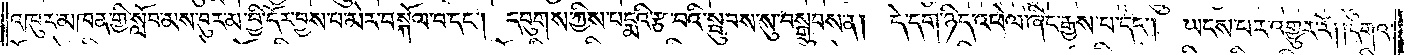འཁུར་མཁན་གྱི་སློབ་མས་བུ་རམ་བྱི་དོར་བྱས་པ་མེར་བསྐོལ་བ་དང༌། དབུགས་ཀྱིས་པདྨའི་རྩ་བའི་སྦུབས་སུ་བསྒྲུབས་ན། དེ་དག་ཉིད་འཕེལ་ཞིང་རྒྱས་པ་དང༌། ཡང་པར་འགྱུར་རོ། །དགའ་
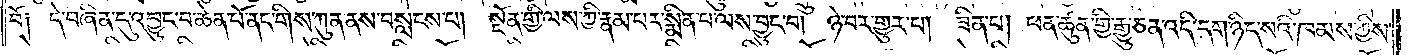བོ༑ དེ་བཞིན་དུ་འབྱུང་བ་ཆེན་པོ་ནང་གིས་ཀུན་ནས་བསླངས་པ། སྔོན་གྱི་ལས་ཀྱི་རྣམ་པར་སྨིན་པ་ལས་བྱུང་བ། ཉེ་བར་འགྱུར་པ། ཟིན་པ། ཕན་ཚུན་གྱི་རྒྱུ་ཅན་འདི་དག་ཉིད་སའི་ཁམས་ཀྱིས་
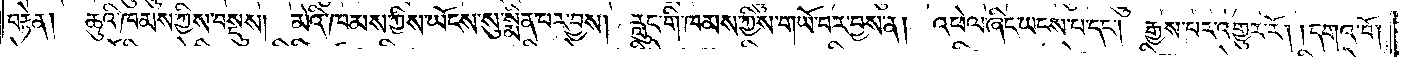བརྟེན། ཆུའི་ཁམས་ཀྱིས་བསྡུས། མེའི་ཁམས་ཀྱིས་ཡོངས་སུ་སྨིན་པར་བྱས། རླུང་གི་ཁམས་ཀྱིས་གཡོ་བར་བྱས་ན། འཕེལ་ཞིང་ཡངས་པ་དང༌། རྒྱས་པར་འགྱུར་རོ། །དགའ་བོ།
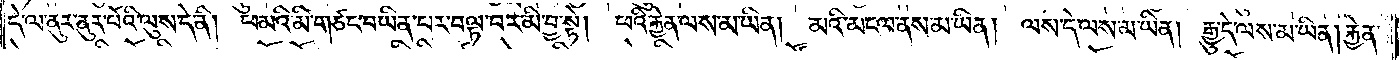དེ་ལ་ནུར་ནུར་པོའི་ལུས་དེ་ནི། ཕ་མའི་མི་གཙང་བ་ཡིན་པར་བལྟ་བར་མི་བྱ་སྟེ། ཕའི་རྐྱེན་ལས་མ་ཡིན། མའི་མངལ་ནས་མ་ཡིན། ལས་དེ་ལས་མ་ཡིན། རྒྱུ་དེ་ལས་མ་ཡིན། རྐྱེན་
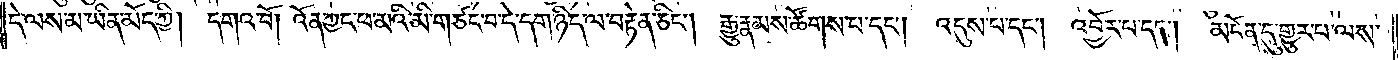དེ་ལས་མ་ཡིན་མོད་ཀྱི། དགའ་བོ་འོན་ཀྱང་ཕ་མའི་མི་གཙང་བ་དེ་དག་ཉིད་ལ་བརྟེན་ཅིང༌། རྒྱུ་རྣམས་ཚོགས་པ་དང༌། འདུས་པ་དང༌། འབྱོར་པ་དང༌། མངོན་དུ་གྱུར་པ་ལས་
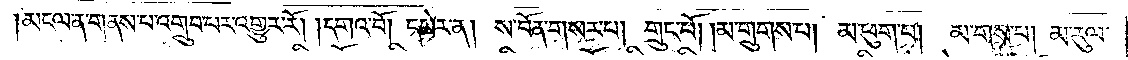མངལ་ན་གནས་པ་འགྲུབ་པར་འགྱུར་རོ། །དགའ་བོ། དཔེར་ན། ས་བོན་གསར་པ། གྲུང་པོ། །མ་གྲུགས་པ། མ་ཕུག་པ། མ་གས་པ། མ་རུལ་
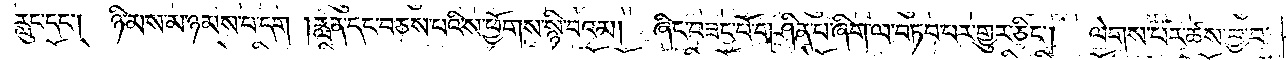རླུང་དང༌། ཉི་མ་ས་མ་ཉམས་པ་དག །རླན་དང་བཅས་པའི་ས་ཕྱོགས་སྙི་བའམ། ཞིང་བཟང་པོ་གཤིན་པ་ཞིག་ལ་བཏབ་པར་གྱུར་ཅིང༌། ལེགས་པར་ཚས་བྱ་བ་
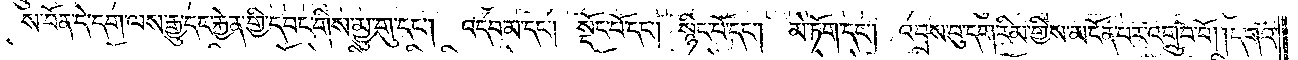ས་བོན་དེ་དག་ལས་རྒྱུ་དང་རྐྱེན་གྱི་དབང་གིས་མྱུ་གུ་དང༌། འདབ་མ་དང༌། སྡོང་པོ་དང༌། སྙིང་པོ་དང༌། མེ་ཏོག་དང༌། འབྲས་བུ་དག་རིམ་གྱིས་མངོན་པར་འགྲུབ་བོ། །དགའ་
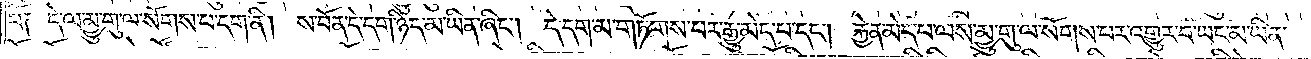བོ༑ དེ་ལ་མྱུ་གུ་ལ་སོགས་པ་དག་ནི། ས་བོན་དེ་དག་ཉིད་མ་ཡིན་ཞིང༌། དེ་དག་མ་གཏོགས་པར་རྒྱུ་མེད་པ་དང༌། རྐྱེན་མེད་པ་ལས་མྱུ་གུ་ལ་སོགས་པར་འགྱུར་བ་ཡང་མ་ཡིན་
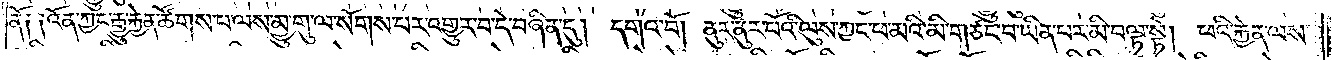ནོ༑ ༑འོན་ཀྱང་རྒྱུ་ཚོགས་པ་ལས་མྱུ་གུ་ལ་སོགས་པར་འགྱུར་བ་དེ་བཞིན་དུ། དགའ་བོ། ནུར་ནུར་པོའི་ལུས་ཀྱང་ཕ་མའི་མི་གཙང་བ་ཡིན་པར་མི་བལྟ་སྟེ། པའི་རྐྱེན་ལས་
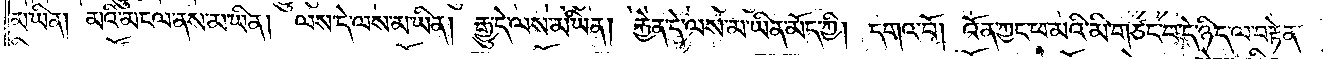མ་ཡིན། མའི་མངལ་ནས་མ་ཡིན། ལས་དེ་ལས་མ་ཡིན། རྒྱུ་དེ་ལས་མ་ཡིན། རྐྱེན་དེ་ལས་མ་ཡིན་མོད་ཀྱི། དགའ་བོ། འོན་ཀྱང་ཕ་མའི་མི་གཙང་བ་དེ་ཉིད་ལ་བརྟེན་
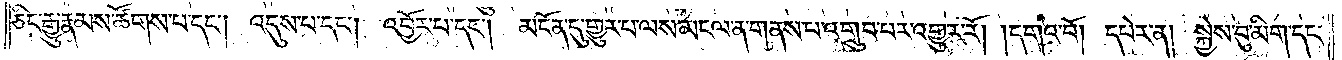ཅིང་རྒྱུ་རྣམས་ཚོགས་པ་དང༌། འདུས་པ་དང༌། འབྱོར་པ་དང༌། མངོན་དུ་གྱུར་པ་ལས་མངལ་ན་གནས་པ་འགྲུབ་པར་འགྱུར་རོ། །དགའ་བོ། དཔེར་ན། སྐྱེས་བུ་མིག་དང་
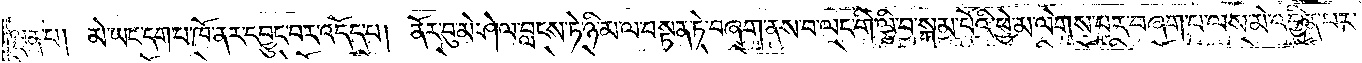ལྡན་པ། མེ་ཡང་དག་པ་ཁོ་ནར་དབྱུང་བར་འདོད་པ། ནོར་བུ་མེ་ཤེལ་བླངས་ཏེ་ཉི་མ་ལ་བསྟན་ཏེ་བཞག་ནས་བ་ལང་གི་ལྕི་བ་སྐམ་པོའི་ཕྱེ་མ་ལེགས་པར་བཞག་པ་ལས་མེ་འབྱིན་པར་
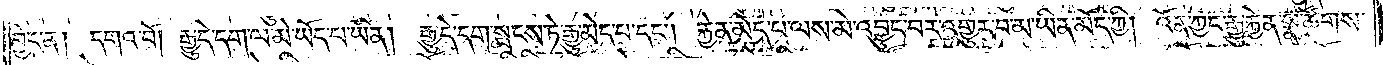བྱེད་ན། དགའ་བོ། རྒྱུ་དེ་དག་ལ་མེ་ཡོད་པ་ཡིན། རྒྱུ་དེ་དག་སྤངས་ཏེ་རྒྱུ་མེད་པ་དང༌། རྐྱེན་མེད་པ་ལས་མེ་འབྱུང་བར་འགྱུར་བ་མ་ཡིན་མོད་ཀྱི། འོན་ཀྱང་རྒྱུ་རྐྱེན་སྣ་ཚོགས་
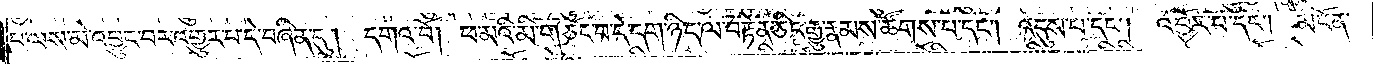པ་ལས་མེ་འབྱུང་བར་འགྱུར་པ་དེ་བཞིན་དུ། དགའ་བོ། ཕ་མའི་མི་གཙང་བ་དེ་དག་ཉིད་ལ་བརྟེན་ཅིང་རྒྱུ་རྣམས་ཚོགས་པ་དང༌། འདུས་པ་དང༌། འབྱོར་པ་དང༌། མངོན་
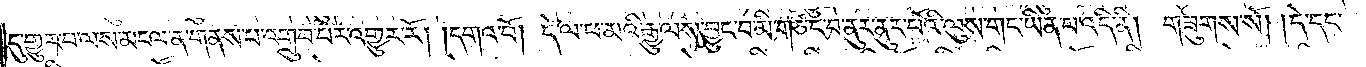དུ་གྱུར་པ་ལས་མངལ་ན་གནས་པ་འགྲུབ་པར་འགྱུར་རོ། །དགའ་བོ། དེ་ལ་ཕ་མའི་རྒྱུ་ལས་བྱུང་བ་མི་གཙང་བ་ནུར་ནུར་པོའི་ལུས་གང་ཡིན་པ་འདི་ནི། གཟུགས་སོ། །དེ་དང་
